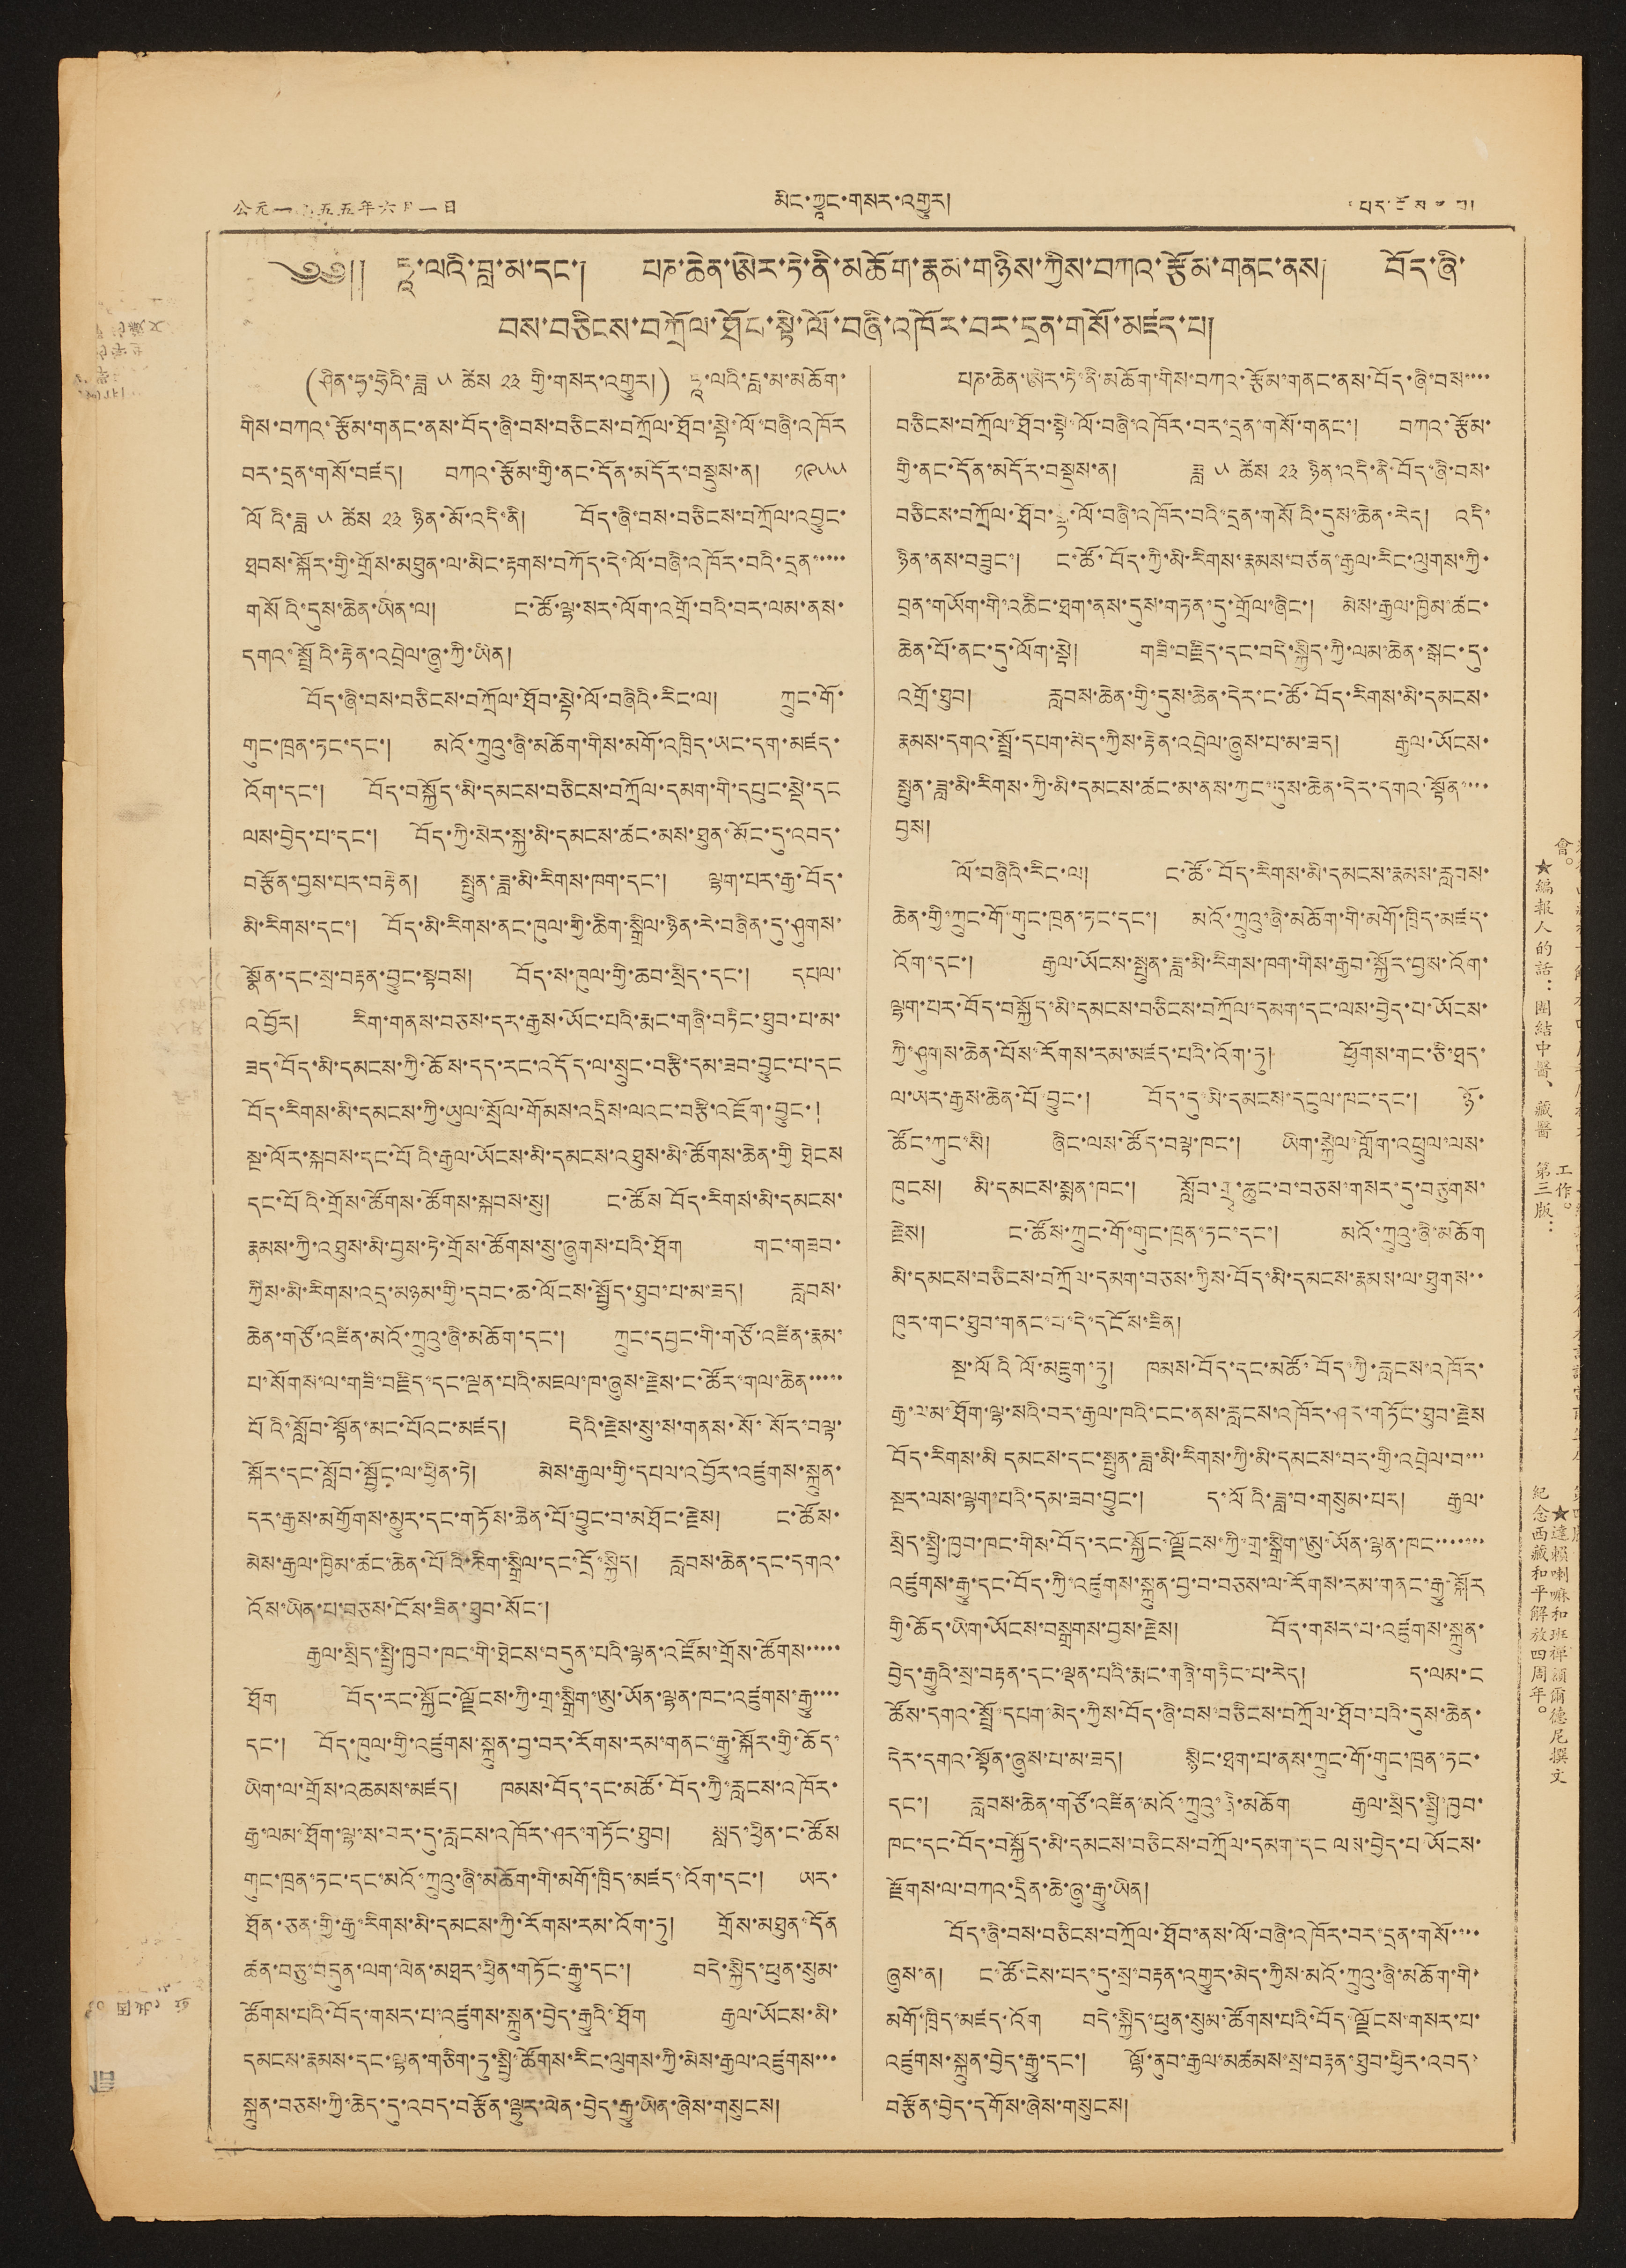公元一九五五年六月一日 མིང་ཀྱཱང་གསར་འགྱུར། དཔར་ངོས་ ༤ པ།
༄༅༎ ཏཱ་ལའི་བླ་མ་དང་། པཎ་ཆེན་ཨེར་ཏེ་ནི་མཆོག་རྣམ་གཉིས་ཀྱིས་བཀའ་རྩོམ་གནང་ནས། བོད་ཞི་
བས་བཅིངས་བཀྲོལ་ཐོབ་སྟེ་ལོ་བཞི་འཁོར་བར་དྲན་གསོ་མཛད་པ།
(ཤིན་ཧྭ་ཧྲེའི་ཟླ ༥ ཚེས ༢༣ གྱི་གསར་འགྱུར།) ཏཱ་ལའི་བླ་མ་མཆོག་
གིས་བཀའ་རྩོམ་གནང་ནས་བོད་ཞི་བས་བཅིངས་བཀྲོལ་ཐོབ་སྟེ་ལོ་བཞི་འཁོར
བར་དྲན་གསོ་བཛད། བཀའ་རྩོམ་གྱི་ནང་དོན་མདོར་བསྡུས་ན། ༡༩༥༥
ལོའི་ཟླ ༥ ཚེས ༢༣ ཉིན་མོ་འདི་ནི། བོད་ཞི་བས་བཅིངས་བཀྲོལ་འབྱུང་
ཐབས་སྐོར་གྱི་གྲོས་མཐུན་ལ་མིང་རྟགས་བཀོད་དེ་ལོ་བཞི་འཁོར་བའི་དྲན་་་་་
གསོའི་དུས་ཆེན་ཡིན་ལ། ང་ཚོ་ལྷ་སར་ལོག་འགྲོ་བའི་བར་ལམ་ནས་
དགའ་སྤྲོའི་རྟེན་འབྲེལ་ཞུ་ཀྱི་ཡིན།
བོད་ཞི་བས་བཅིངས་བཀྲོལ་ཐོབ་སྟེ་ལོ་བཞིའི་རིང་ལ། ཀྲུང་གོ་
གུང་ཁྲན་ཏང་དང་། མའོ་ཀྲུའུ་ཞི་མཆོག་གིས་མགོ་འཁྲིད་ཡང་དག་མཛད་
འོག་དང་། བོད་བསྐྱོད་མི་དམངས་བཅིངས་བཀྲོལ་དམག་གི་དཔུང་སྡེ་དང
ལས་བྱེད་པ་དང་། བོད་ཀྱི་སེར་སྐྱ་མི་དམངས་ཚང་མས་ཐུན་མོང་དུ་འབད་
བརྩོན་བྱས་པར་བརྟེན། སྤུན་ཟླ་མི་རིགས་ཁག་དང་། ལྷག་པར་རྒྱ་བོད་
མི་རིགས་དང་། བོད་མི་རིགས་ནང་ཁུལ་གྱི་ཆིག་སྒྲིལ་ཉིན་རེ་བཞིན་དུ་ཤུགས་
སྣོན་དང་སྲ་བརྟན་བྱུང་སྟབས། བོད་ས་ཁུལ་གྱི་ཆབ་སྲིད་དང་། དཔལ་
འབྱོར། རིག་གནས་བཅས་དར་རྒྱས་ཡོང་པའི་རྨང་གཞི་བཏིང་ཐུབ་པ་མ་
ཟད་བོད་མི་དམངས་ཀྱི་ཆོས་དད་རང་འདོད་ལ་སྲུང་བརྩི་དམ་ཟབ་བྱུང་པ་དང
བོད་རིགས་མི་དམངས་ཀྱི་ཡུལ་སྲོལ་གོམས་འདྲིས་ལའང་བརྩི་འཇོག་བྱུང་།
སྔ་ལོར་སྐབས་དང་པོའི་རྒྱལ་ཡོངས་མི་དམངས་འཐུས་མི་ཚོགས་ཆེན་གྱི ཐེངས
དང་པོའི་གྲོས་ཚོགས་ཚོགས་སྐབས་སུ། ང་ཚོས བོད་རིགས་མི་དམངས་
རྣམས་ཀྱི་འཐུས་མི་བྱས་ཏེ་གྲོས་ཚོགས་སུ་ཞུགས་པའི་ཐོག གང་གཟབ་
ཀྱིས་མི་རིགས་འདྲ་མཉམ་གྱི་དབང་ཆ་ལོངས་སྤྱོད་ཐུབ་པ་མ་ཟད། རླབས་
ཆེན་གཙོ་འཛིན་མའོ་ཀྲུའུ་ཞི་མཆོག་དང་། ཀྲུང་དབྱང་གི་གཙོ་འཛིན་རྣམ་
པ་སོགས་ལ་གཟི་བརྗིད་དང་ལྔན་པའི་མཇལ་ཁ་ཞུས་རྗེས་ང་ཚོར་གལ་ཆེན་་་་་
པོའི་སློབ་སྟོན་མང་པོའང་མཛད། དེའི་རྗེས་སུ་ས་གནས་སོ་སོར་བལྟ་
སྐོར་དང་སློབ་སྦྱོང་ལ་ཕྱིན་ཏེ། མེས་རྒྱལ་གྱི་དཔལ་འབྱོར་འཛུགས་སྐྲུན་
དར་རྒྱས་མགྱོགས་མྱུར་དང་གཏོས་ཆེན་པོ་བྱུང་བ་མཐོང་རྗེས། ང་ཚོས་
མེས་རྒྱལ་ཁྱིམ་ཚང་ཆེན་པོའི་ཆིག་སྒྲིལ་དང་དྲོ་སྐྱིད། རླབས་ཆེན་དང་དགའ་
འོས་ཡིན་པ་བཅས་ངོས་ཟིན་ཐུབ་སོང་།
རྒྱལ་སྲིད་སྤྱི་ཁྱབ་ཁང་གི་ཐེངས་བདུན་པའི་ལྷན་འཛོམ་གྲོས་ཚོགས་་་་་
ཐོག བོད་རང་སྐྱོང་ལྗོངས་ཀྱི་གྲ་སྒྲིག་ཨུ་ཡོན་ལྷན་ཁང་འཛུགས་རྒྱུ་་་་
དང་། བོད་ཁུལ་གྱི་འཛུགས་སྐྲུན་བྱ་བར་རོགས་རམ་གནང་རྒྱུ་སྐོར་གྱི་ཆོད་
ཡིག་ལ་གྲོས་འཆམས་མཛད། ཁམས་བོད་དང་མཚོ་བོད་ཀྱི་རླངས་འཁོར་
རྒྱ་ལམ་ཐོག་ལྷ་ས་བར་དུ་རླངས་འཁོར་ཤར་གཏོང་ཐུབ། སླད་ཕྱིན་ང་ཚོས
གུང་ཁྲན་ཏང་དང་མའོ་ཀྲུའུ་ཞི་མཆོག་གི་མགོ་ཁྲིད་མཛད་འོག་དང་། ཡར་
ཐོན་ཅན་གྱི་རྒྱ་རིགས་མི་དམངས་ཀྱི་རོགས་རམ་འོག་ཏུ། གྲོས་མཐུན་དོན
ཚན་བཅུ་བདུན་ལག་ལེན་མཐར་ཕྱིན་གཏོང་རྒྱུ་དང་། བདེ་སྐྱིད་ཕུན་སུམ་
ཚོགས་པའི་བོད་གསར་པ་འཛུགས་སྐྲུན་བྱེད་རྒྱུའི་ཐོག རྒྱལ་ཡོངས་མི་
དམངས་རྣམས་དང་ལྷན་གཅིག་ཏུ་སྤྱི་ཚོགས་རིང་ལུགས་ཀྱི་མེས་རྒྱལ་འཛུགས་་་
སྐྲུན་བཅས་ཀྱི་ཆེད་དུ་འབད་བརྩོན་ལྷུར་ལེན་བྱེད་རྒྱུ་ཡིན་ཞེས་གསུངས།
པཎ་ཆེན་ཨེར་ཏེ་ནི་མཆོག་གིས་བཀའ་རྩོམ་གནང་ནས་བོད་ཞི་བས་་་་
བཅིངས་བཀྲོལ་ཐོབ་སྟེ་ལོ་བཞི་འཁོར་བར་དྲན་གསོ་གནང་། བཀའ་རྩོམ་
གྱི་ནང་དོན་མདོར་བསྡུས་ན། ཟླ ༥ ཚེས ༢༣ ཉིན་འདི་ནི་བོད་ཞི་བས་
བཅིངས་བཀྲོལ་ཐོབ་ལྟ་ལོ་བཞི་འཁོར་བའི་དྲན་གསོའི་དུས་ཆེན་རེད། འདི་
ཉིན་ནས་བཟུང་། ང་ཚོ་བོད་ཀྱི་མི་རིགས་རྣམས་བཙན་རྒྱལ་རིང་ལུགས་ཀྱི་
བྲན་གཡོག་གི་འཆིང་ཐག་ནས་དུས་གཏན་དུ་གྲོལ་ཞིང་། མེས་རྒྱལ་ཁྱིམ་ཚང་
ཆེན་པོ་ནང་དུ་ལོག་སྟེ། གཟི་བརྗིད་དང་བདེ་སྐྱིད་ཀྱི་ལམ་ཆེན་སྒང་དུ་
འགྲོ་ཐུབ། རླབས་ཆེན་གྱི་དུས་ཆེན་དེར་ང་ཚོ་བོད་རིགས་མི་དམངས་
རྣམས་དགའ་སྤྲོ་དཔག་མེད་ཀྱིས་རྟེན་འབྲེལ་ཞུས་པ་མ་ཟད། རྒྱལ་ཡོངས་
སྤུན་ཟླ་མི་རིགས་ཀྱི་མི་དམངས་ཚང་མ་ནས་ཀྱང་དུས་ཆེན་དེར་དགའ་སྟོན་་་་
བྱས།
ལོ་བཞིའི་རིང་ལ། ང་ཚོ་བོད་རིགས་མི་དམངས་རྣམས་རླབས་
ཆེན་གྱི་ཀྲུང་གོ་གུང་ཁྲན་ཏང་དང་། མའོ་ཀྲུའུ་ཞི་མཆོག་གི་མགོ་ཁྲིད་མཛད་
འོག་དང་། རྒྱལ་ཡོངས་སྤུན་ཟླ་མི་རིགས་ཁག་གིས་རྒྱབ་སྐྱོར་བྱས་འོག་
ལྷག་པར་བོད་བསྐྱོད་མི་དམངས་བཅིངས་བཀྲོལ་དམག་དང་ལས་བྱེད་པ་ཡོངས་
ཀྱི་ཤུགས་ཆེན་པོས་རོགས་རམ་མཛད་པའི་འོག་ཏུ། ཕྱོགས་གང་ཅི་ཐད་
ལ་ཡར་རྒྱས་ཆེན་པོ་བྱུང་། བོད་དུ་མི་དམངས་དངུལ་ཁང་དང་། ཉོ་
ཚོང་ཀུང་སི། ཞིང་ལས་ཚོད་བལྟ་ཁང་། ཡིག་སྐྱེལ་གློག་འཕྲུལ་ལས་
ཁུངས། མི་དམངས་སྨན་ཁང་། སློབ་གྲྭ་ཆུང་བ་བཅས་གསར་དུ་བཅུགས་
རྗེས། ང་ཚོས་ཀྲུང་གོ་གུང་ཁྲན་ཏང་དང་། མའོ་ཀྲུའུ་ཞི་མཆོག
མི་དམངས་བཅིངས་བཀྲོལ་དམག་བཅས་ཀྱིས་བོད་མི་དམངས་རྣམས་ལ་ཐུགས་་
ཁུར་གང་ཐུབ་གནང་པ་དེ་དངོས་ཟིན།
སྔ་ལོའི ལོ་མཇུག་ཏུ། ཁམས་བོད་དང་མཚོ་བོད་ཀྱི་རླངས་འཁོར་
རྒྱ་ལམ་ཐོག་ལྷ་སའི་བར་རྒྱལ་ཁའི་ངང་ནས་རླངས་འཁོར་ཤར་གཏོང་ཐུབ་རྗེས
བོད་རིགས་མི དམངས་དང་སྤུན་ཟླ་མི་རིགས་ཀྱི་མི་དམངས་བར་གྱི་འབྲེལ་བ་་་
སྔར་ལས་ལྷག་པའི་དམ་ཟབ་བྱུང་། ད་ལོའི་ཟླ་བ་གསུམ་པར། རྒྱལ་
སྲིད་སྤྱི་ཁྱབ་ཁང་གིས་བོད་རང་སྐྱོང་ལྗོངས་ཀྱི་གྲ་སྒྲིག་ཨུ་ཡོན་ལྷན་ཁང་་་་་་་
འཛུགས་རྒྱུ་དང་བོད་ཀྱི་འཛུགས་སྐྲུན་བྱ་བ་བཅས་ལ་རོགས་རམ་གནང་རྒྱུ་སྐོར
གྱི་ཆོད་ཡིག་ཡོངས་བསྒྲགས་བྱས་རྗེས། བོད་གསར་པ་འཛུགས་སྐྲུན་
བྱེད་རྒྱུའི་སྲ་བརྟན་དང་ལྡན་པའི་རྨང་གཞི་གཏིང་པ་རེད། ད་ལམ་ང
ཚོས་དགའ་སྤྲོ་དཔག་མེད་ཀྱིས་བོད་ཞི་བས་བཅིངས་བཀྲོལ་ཐོབ་པའི་དུས་ཆེན་
དེར་དགའ་སྟོན་ཞུས་པ་མ་ཟད། སྙིང་ཐག་པ་ནས་ཀྲུང་གོ་གུང་ཁྲན་ཏང་
དང་། རླབས་ཆེན་གཙོ་འཛིན་མའོ་ཀྲུའུ་ཞི་མཆོག རྒྱལ་སྲིད་སྤྱི་ཁྱབ་
ཁང་དང་བོད་བསྐྱོད་མི་དམངས་བཅིངས་བཀྲོལ་དམག་དང ལས་བྱེད་པ ཡོངས་
རྫོགས་ལ་བཀའ་དྲིན་ཆེ་ཞུ་རྒྱུ་ཡིན།
བོད་ཞི་བས་བཅིངས་བཀྲོལ་ཐོབ་ནས་ལོ་བཞི་འཁོར་བར་དྲན་གསོ་་་་
ཞུས་ན། ང་ཚོ་ངེས་པར་དུ་སྲ་བརྟན་འགྱུར་མེད་ཀྱིས་མའོ་ཀྲུའུ་ཞི་མཆོག་གི་
མགོ་ཁྲིད་མཛད་འོག བདེ་སྐྱིད་ཕུན་སུམ་ཚོགས་པའི་བོད་ལྗོངས་གསར་པ་
འཛུགས་སྐྲུན་བྱེད་རྒྱུ་དང་། ལྷོ་ནུབ་རྒྱལ་མཚམས་སྲ་བརྟན་ཐུབ་ཕྱིར་འབད་
བརྩོན་བྱེད་དགོས་ཞེས་གསུངས།
會。
★編報人的話：團結中醫、藏醫
工作。
第三版：
★達賴喇嘛和班禪額爾德尼撰文
紀念西藏和平解放四周年。
